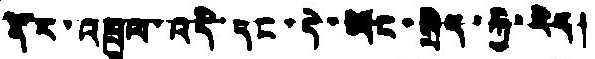ནོར་འཁྲུལ་འདི་དང་དེ་ཡོང་སྲིད་ཀྱི་རེད།
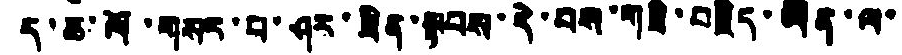ད་ཆ་ལོ་གསར་པ་ཤར་ཟིན་སྟབས་དེ་བས་གཟི་བརྗིད་ཡིན་ལ་
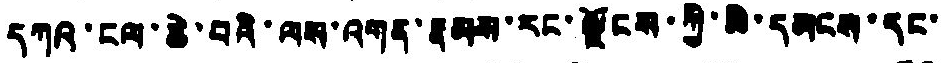དཀའ་ངལ་ཆེ་བའི་ལས་འགན་རྣམས་རང་ལྗོངས་ཀྱི་མི་དམངས་དང་
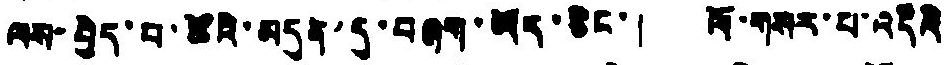ལས་བྱེད་པ་ཚོའི་མདུན་དུ་བཞག་ཡོད་ཅིང་། ལོ་གསར་པ་འདིའི
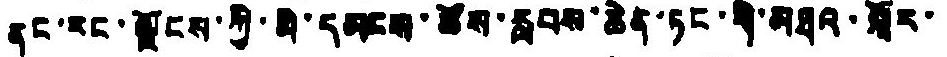ནང་རང་ལྗོངས་ཀྱི་མི་དམངས་ཚོས་རླབས་ཆེན་ཏང་གི་མཐའ་སྐོར་
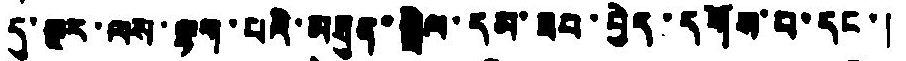དུ་སྔར་ལས་ལྷག་པའི་མཐུན་སྒྲིལ་དམ་ཟབ་བྱེད་དགོས་པ་དང་།
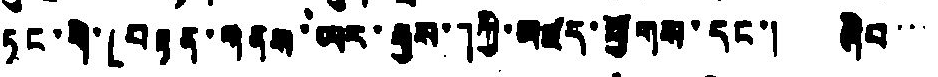ཏང་གི་「བརྟན་གནས་ཨར་རྒྱས་」ཀྱི་མཛད་ཕྱགས་དང་། ཞིབ་་་
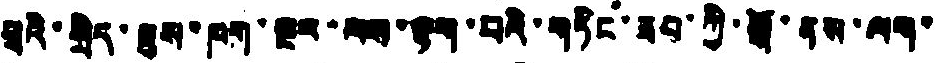ཕྲའི་སྲིད་ཇུས་ཁག་སྔར་ལས་ལྷག་པའི་གཏིང་ཟབ་ཀྱི་སྒོ་ནས་ལག་
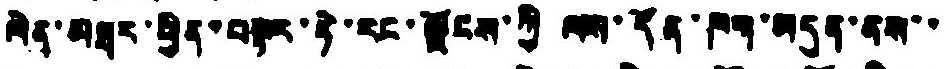ལེན་མཐར་ཕྱིན་བསྟར་ཏེ་རང་ལྗོངས་ཀྱི ལས་དོན་ཁག་མདུན་ནས་་
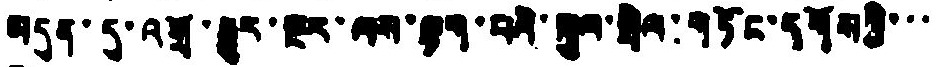བདུན་དུ་འགྲོ་རྒྱུར་སྔར་ལས་ལྷག་པའི་སྐུལ་སྤེལ་གཏོང་དགོསཀྱི་་་
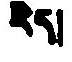རེད།
